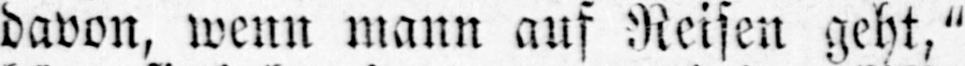davon, wenn mann auf Reisen geht,"
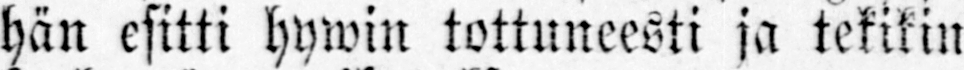hän esitti hywin tottuneesti ja tekikin
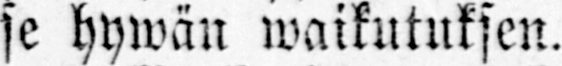se hywän waikutuksen.
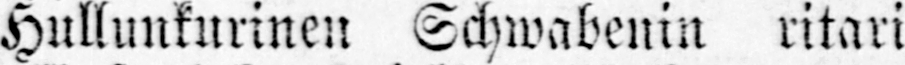Hullunkurinen Schwabenin ritari
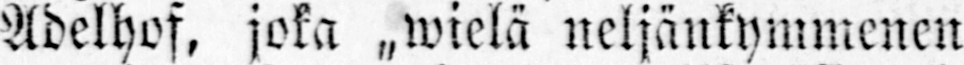Adelhof, joka „wielä neljänkymmenen
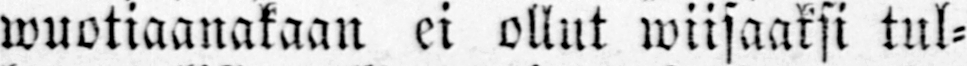wuotiaanakaan ei ollut wiisaaksi tul-
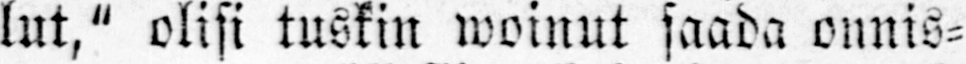lut," olisi tuskin woinut saada onnis-
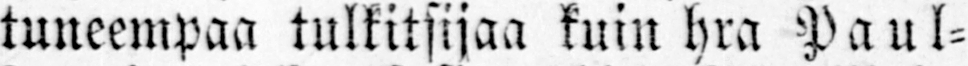tuneempaa tulkitsijaa kuin hra Paul-
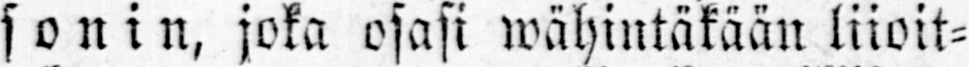sonin, joka osasi wähintäkään liioit-
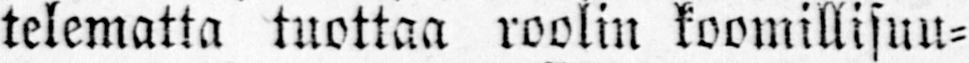telematta tuottaa roolin koomillisuu-
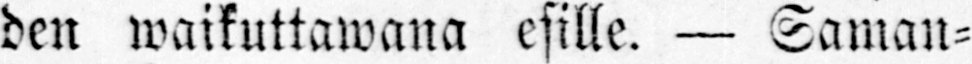den waikuttawana esille. — Saman-
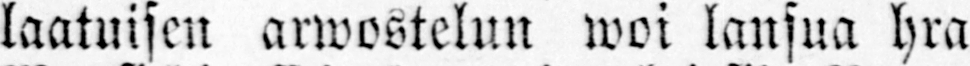laatuisen arwostelun woi lansua hra
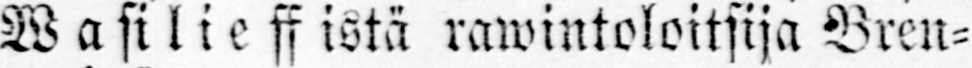Wasilieffistä rawintoloitsija Bren-
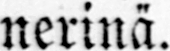nerinä.
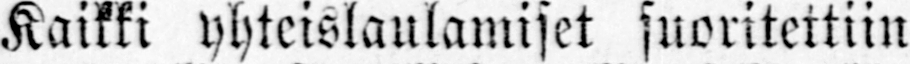Kaikki yhteislaulamiset suoritettiin
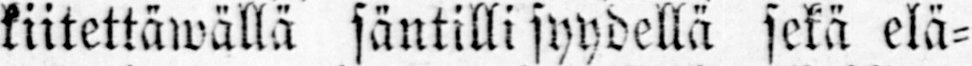kiitettäwällä säntilli syydellä sekä elä-
